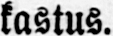kastus.
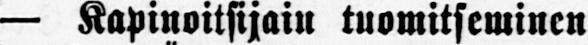— Kapinoitsijain tuomitseminen
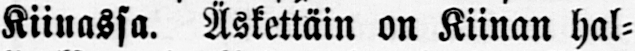Kiinassa. Äskettäin on Kiinan hal-
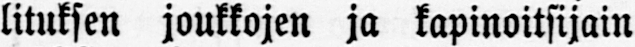lituksen joukkojen ja kapinoitsijain
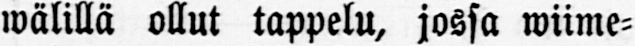wälillä ollut tappelu, jossa wiime-
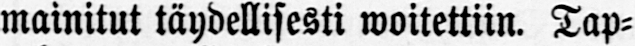mainitut täydellisesti woitettiin. Tap-
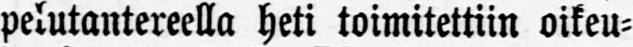pelutantereella heti toimitettiin oikeu-
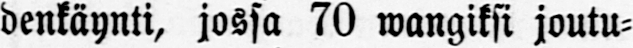denkäynti, jossa 70 waagiksi joutu-
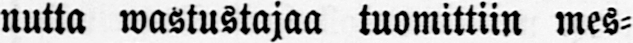nutta wastustajaa tuomittiin mes-
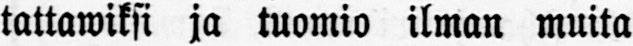tattawiksi ja tuomio ilman muita
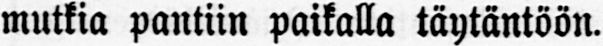mutkia pantiin paikalla täytäntöön.
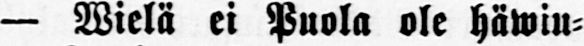— Wielä ei Puola ole häwin-
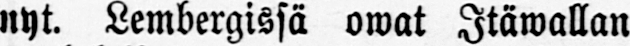nyt. Lembergissä owat Itäwallan
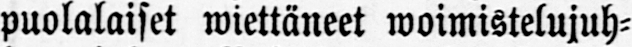puolalaiset wieltäneet woimistelujuh-
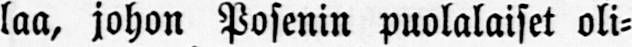laa, johon Posenin puolalaiset oli-
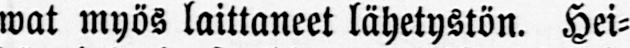wat myös laittaneet lähetystön. Hei-
